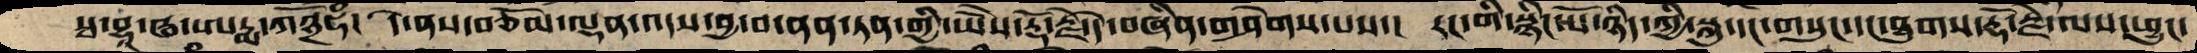སྭ་བྷཱ་ཝ་ཨཏྨ་ཀོ྅ཧཾ།  དེེ་ནས་བཅོམ་ལྡན་འདས་བྱ་བ་ནན་ཏན་གྱི་ཡཻས་རྡོ་རྗེ་དེ་བཞིན་གཤེགས་པས་།  རང་གི་སྙིང་པོ་ཉིད་ཀྱི་སྐུ་དང་གསུང་དང་ཐུགས་རྡོ་རྗེ་ལས་ཕྱུང་
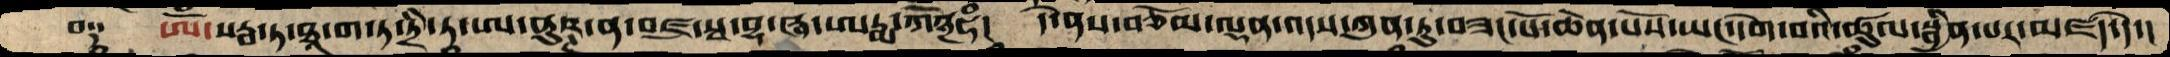བ༑  ཨོཾ་སརྦ་ཏ་ཐཱ་ག་ཏ་ཏྲི་ཏ་ཨ་ནུཥྚ་ན་བཛྲ་སྭ་བྷཱ་ཝ་ཨཏྨ་ཀོ྅ཧཾ། དེ་ནས་མཅོམ་ལྡན་འདས་ཀུན་ཏུ་བཟང་པོ་ཆེན་པོས་ཡང་དགེ་བའི་ཚུལ་སྦྱིན་པར་མཛད་དེ་།
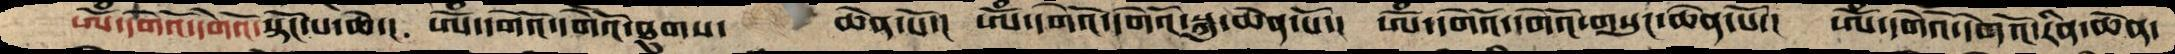ཨོཾ་དགེའོ་དགེའོ་སྟོང་པ་ཆེ་།  ཨོཾ་དགེའོ་དགེའོ་ཐུགས་   ཆེན་པོ་།  ཨོཾ་དགེའོ་དགེའོ་སྐུ་ཆེན་པོ་།  ཨོཾ་དགེའོ་དགེའོ་གསུང་ཆེན་པོ་།  ཨོཾ་དགེའོ་དགེའོ་རིན་ཆེན་
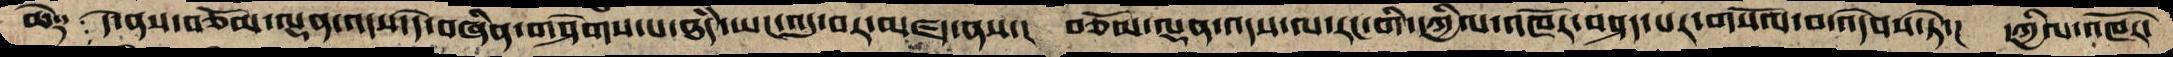ཆེ༑  དེ་ནས་བཅོམ་ལྡན་འདས་དེ་བཞིན་གཤེགས་པ་ཐཾད་ཡང་འདུ་བར་མཛད་ནས་།  བཅོམ་ལྡན་འདས་ལ་རང་གི་དཀྱིལ་འཁོར་བཤད་པར་གསོལ་བ་འདེབས་ཏེ་།  དཀྱིལ་འཁོར་
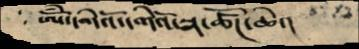ཨོཾ་དགེའོ་དགེའོ་སྣ་ཚོཌ་ཆེ་།
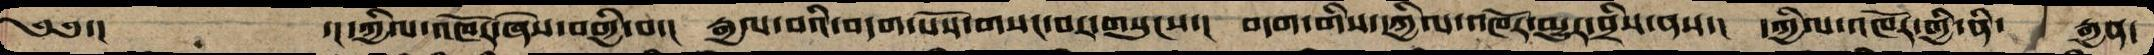༄༅་།    ་།དཀྱིལ་འཁོར་ཞེས་བགྱི་བ་།  རྒྱལ་བའི་བདག་པོས་གསང་བར་གསུངས་།  བདག་གིས་དཀྱིལ་འཁོར་མྱུར་བྲིས་ནས་།  དཀྱིལ་འཁོར་གྱི་ནི་  རྒྱན་
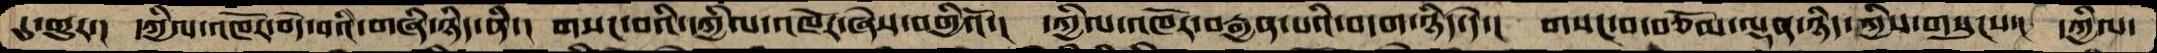དུ་གྱུར་།  དཀྱིལ་འཁོར་བདེ་བའི་གཞི་ཉིད་ནི་།  གསང་བའི་དཀྱིལ་འཁོར་ཞེས་བགྱིའོ་།  དཀྱིལ་འཁོར་བརྒྱན་པའི་བདག་ཉིད་དེ་།  གསང་བ་བཅོམ་ལྡན་ཉིད་ཀྱིས་གསུངས་།  དཀྱིལ་
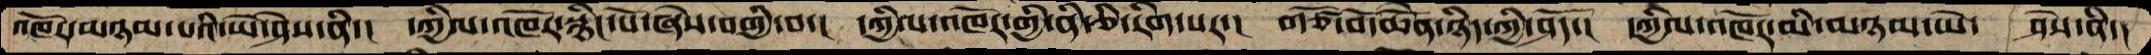འཁོར་མཉམ་པའི་ཡེ་ཤེས་ནི་།  དཀྱིལ་འཁོར་སྙིང་པོ་ཞེས་བགྱི་བ་།  དཀྱིལ་འཁོར་གྱི་ནི་ཅི་རིག་པར་།  གཙོ་བོ་ཆེནོ་ཉིད་ཀྱི་ཤོད་།  དཀྱིལ་འཁོར་མི་མཉམ་ཡེ་  ཤེས་ནི་།
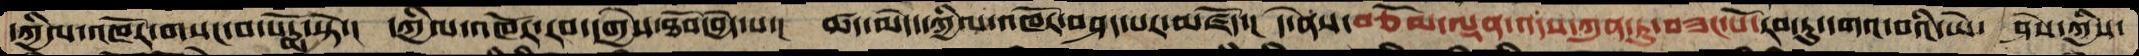དཀྱིལ་འཁོར་གསང་བ་པདྨོ་སྟེ་།  དཀྱིལ་འཁོར་རབ་དགྱེས་ཐོབ་བྱེད་པ་།  ཚད་མེད་དཀྱིལ་འཁོར་བཤད་པར་མཛོད་།  དེ་ནས་བཅོམ་ལྡན་འདས་ཀུན་ཏུ་བཟང་པོ་རབ་ཏུ་དགའ་བའི་ཡེ་  ཤེས་ཀྱིས་
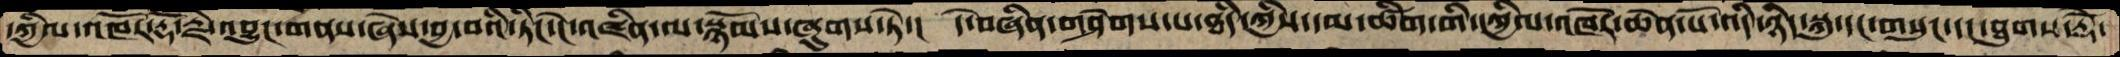དཀྱིལ་འཁོར་རྡོ་རྗེ་འབྱུང་གནས་ཞེས་བྱ་བའི་ཏིང་ངེ་འཛིན་ལ་སྙོམས་པར་ཞུགས་ཏེ་།  དེ་བཞིན་གཤེགས་པ་ཐཾད་ཀྱིས་དམ་ཚིག་གི་དཀྱིལ་འཁོར་ཆེན་པོ་འདི་ཉིད་སྐུ་དང་གསུང་དང་ཐུགས་རྡོེ་
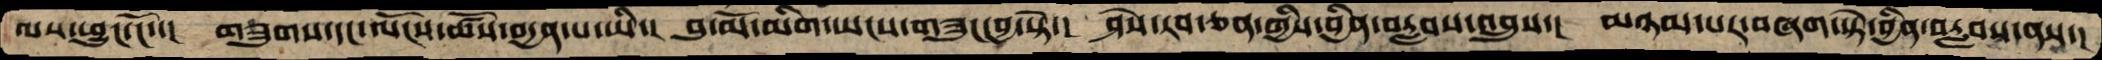ལས་ཕྱུང་ངོ་་།  གཟུགས་ལོངས་ཚོས་བདྱན་པ་ཡི་།  བུ་མོ་མིག་ཡངས་གཟུང་བྱ་སྟེ་།  ཤེས་རབ་ཅན་གྱིས་བྱིན་བརླབས་འབྲུས་།  མཉམ་པར་བཞག་སྟེ་བྱིན་བརླབས་ནས་།
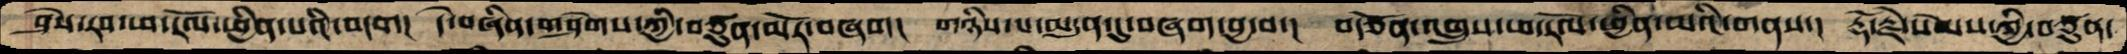ཤེས་རབ་ཕ་རོལ་ཕྱིན་པའི་བདག།  དེ་བཞིན་གཤེགས་ཀྱི་བཙུན་མོར་བཞག།  གཉིས་ལ་མདུན་དུ་བཞག་བྱ་བ་།  བརྩོན་འགྲུས་ཕ་རོལ་ཕྱིན་མའི་གནས་།  རྡོ་རྗེ་སེམས་ཀྱི་བཙུན་
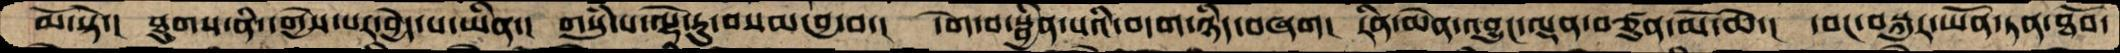མོ་སྟེ་།  ཐུགས་ནི་དགྱེས་པར་བྱེད་པ་ཡིན་།  གསུཾ་པ་ལྷོ་རུ་བསམ་བྱ་བ་།  དགེ་བ་སྦྱིན་པའི་བདག་ཉིད་བཞག།  རིན་ཆེན་འབྱུང་ལྡན་བཙུན་མོ་ཆེ་།  དབང་བསྐུར་ཡོན་ཏན་ཐོབ་
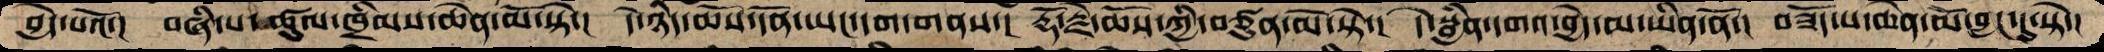བྱེད་པའོ་།  བཞི་པ་ཚུལ་ཁྲིམས་ཆེན་མོ་སྟེ་།  དེ་ཉིད་མོས་དོན་ཡང་དག་གནས་།  རྡོ་རྗེ་ཆོས་ཀྱི་བཙུན་མོ་སྟེ་།  དེ་སྦྱིན་དགའ་བྱེད་མ་ཡིན་ནོ་།  བཟོད་པ་ཆེན་མོ་བླང་དུ་སྟེ་།
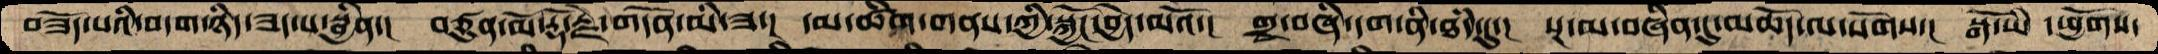བཟོད་པའི་བདག་ཉིད་ཟད་པ་སྦྱིན་།  བཙུན་མོ་རྡོ་རྗེ་གདོན་མི་ཟ་།  དམ་ཚིག་གནས་ཀྱི་སྐྱོང་བྱེད་མའོ་།  གྲྭ་བཞི་དག་ནི་ཐདཾ་དུ་།  སྔ་མ་བཞིན་དུ་མཆོད་ལ་སོགས་།  སྒོ་ཡི ་ཕྱོགས་
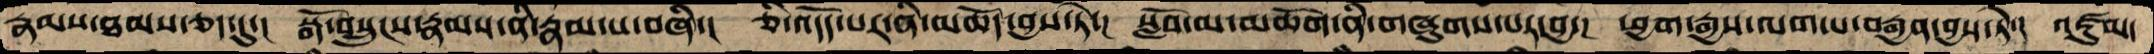རྣམས་ཐམས་ཅད་དུ་།  སྒོ་བསྲུངས་རྣམས་ནི་རྣམ་པ་བཞི་།  ཅི་འདོད་པར་ནི་མཆོད་བྱས་ཏེ་།  སློབ་མ་མཆོག་ནི་གཞུགས་པར་བྱ་།  ཕྱག་རྒྱས་ལག་པ་བརྒྱན་བྱས་ཏེ་།  འཛུམ་
